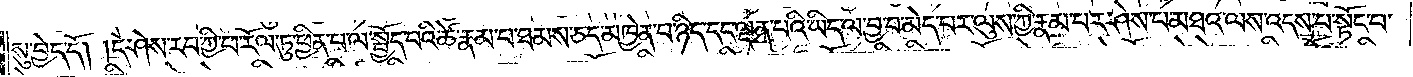སུ་བྱེད་དོ། །དེ་ཤེས་རབ་ཀྱི་ཕ་རོལ་ཏུ་ཕྱིན་པ་ལ་སྤྱོད་པའི་ཚེ་རྣམ་པ་ཐམས་ཅད་མཁྱེན་པ་ཉིད་དང་ལྡན་པའི་ཡིད་ལ་བྱ་བ་མེད་པར་ལུས་ཀྱི་རྣམ་པར་ཤེས་པ་མཐའ་ལས་འདས་པ་སྟོང་པ་
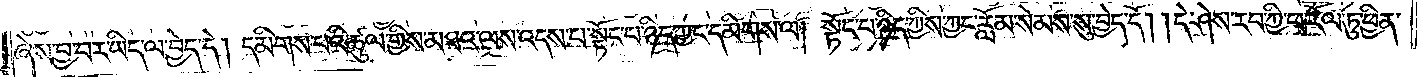ཞེས་བྱ་བར་ཡིད་ལ་བྱེད་དེ། དམིགས་པའི་ཚུལ་གྱིས་མཐའ་ལས་འདས་པ་སྟོང་པ་ཉིད་ཀྱང་དམིགས་ལ། སྟོང་པ་ཉིད་ཀྱིས་ཀྱང་རློམ་སེམས་སུ་བྱེད་དོ། །དེ་ཤེས་རབ་ཀྱི་ཕ་རོལ་ཏུ་ཕྱིན་
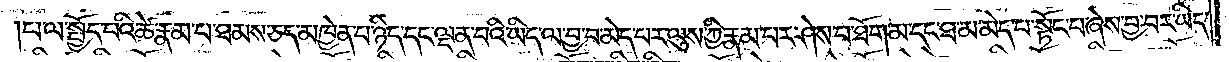པ་ལ་སྤྱོད་པའི་ཚེ་རྣམ་པ་ཐམས་ཅད་མཁྱེན་པ་ཉིད་དང་ལྡན་པའི་ཡིད་ལ་བྱ་བ་མེད་པར་ལུས་ཀྱི་རྣམ་པར་ཤེས་པ་ཐོག་མ་དང་ཐ་མ་མེད་པ་སྟོང་པ་ཞེས་བྱ་བར་ཡིད་
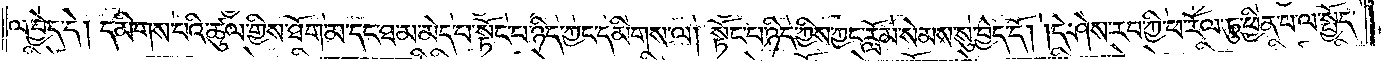ལ་བྱེད་དེ། དམིགས་པའི་ཚུལ་གྱིས་ཐོག་མ་དང་ཐ་མ་མེད་པ་སྟོང་པ་ཉིད་ཀྱང་དམིགས་ལ། སྟོང་པ་ཉིད་ཀྱིས་ཀྱང་རློམ་སེམས་སུ་བྱེད་དོ། །དེ་ཤེས་རབ་ཀྱི་ཕ་རོལ་ཏུ་ཕྱིན་པ་ལ་སྤྱོད་
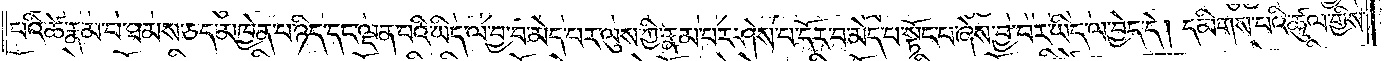པའི་ཚེ་རྣམ་པ་ཐམས་ཅད་མཁྱེན་པ་ཉིད་དང་ལྡན་པའི་ཡིད་ལ་བྱ་བ་མེད་པར་ལུས་ཀྱི་རྣམ་པར་ཤེས་པ་དོར་བ་མེད་པ་སྟོང་པ་ཞེས་བྱ་བར་ཡིད་ལ་བྱེད་དེ། དམིགས་པའི་ཚུལ་གྱིས་
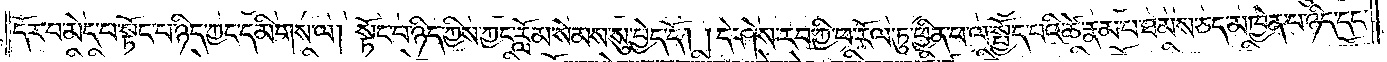དོར་བ་མེད་པ་སྟོང་པ་ཉིད་ཀྱང་དམིགས་ལ། སྟོང་པ་ཉིད་ཀྱིས་ཀྱང་རློམ་སེམས་སུ་བྱེད་དོ། །དེ་ཤེས་རབ་ཀྱི་ཕ་རོལ་ཏུ་ཕྱིན་པ་ལ་སྤྱོད་པའི་ཚེ་རྣམ་པ་ཐམས་ཅད་མཁྱེན་པ་ཉིད་དང་
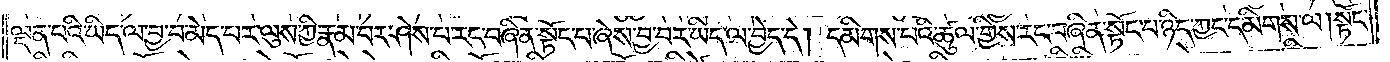ལྡན་པའི་ཡིད་ལ་བྱ་བ་མེད་པར་ལུས་ཀྱི་རྣམ་པར་ཤེས་པ་རང་བཞིན་སྟོང་པ་ཞེས་བྱ་བར་ཡིད་ལ་བྱེད་དེ། དམིགས་པའི་ཚུལ་གྱིས་རང་བཞིན་སྟོང་པ་ཉིད་ཀྱང་དམིགས་ལ། སྟོང་
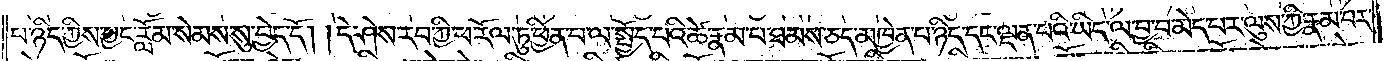པ་ཉིད་ཀྱིས་ཀྱང་རློམ་སེམས་སུ་བྱེད་དོ། །དེ་ཤེས་རབ་ཀྱི་ཕ་རོལ་ཏུ་ཕྱིན་པ་ལ་སྤྱོད་པའི་ཚེ་རྣམ་པ་ཐམས་ཅད་མཁྱེན་པ་ཉིད་དང་ལྡན་པའི་ཡིད་ལ་བྱ་བ་མེད་པར་ལུས་ཀྱི་རྣམ་པར་
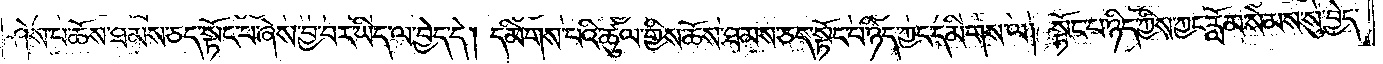ཤེས་པ་ཆོས་ཐམས་ཅད་སྟོང་པ་ཞེས་བྱ་བར་ཡིད་ལ་བྱེད་དོ། དམིགས་པའི་ཚུལ་གྱིས་ཆོས་ཐམས་ཅད་སྟོང་པ་ཉིད་ཀྱང་དམིགས་ལ། སྟོང་པ་ཉིད་ཀྱིས་ཀྱང་རློམ་སེམས་སུ་བྱེད་
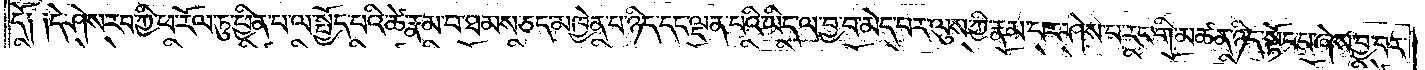དོ༑ ༑དེ་ཤེས་རབ་ཀྱི་ཕ་རོལ་ཏུ་ཕྱིན་པ་ལ་སྤྱོད་པའི་ཚེ་རྣམ་པ་ཐམས་ཅད་མཁྱེན་པ་ཉིད་དང་ལྡན་པའི་ཡིད་ལ་བྱ་བ་མེད་པར་ལུས་ཀྱི་རྣམ་པར་ཤེས་པ་རང་གི་མཚན་ཉིད་སྟོང་པ་ཞེས་བྱ་བར་
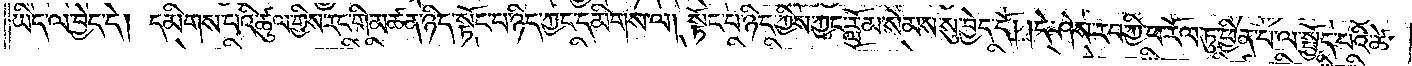ཡིད་ལ་བྱེད་དེ། དམིགས་པའི་ཚུལ་གྱིས་རང་གི་མཚན་ཉིད་སྟོང་པ་ཉིད་ཀྱང་དམིགས་ལ། སྟོང་པ་ཉིད་ཀྱིས་ཀྱང་རློམ་སེམས་སུ་བྱེད་དོ། །དེ་ཤེས་རབ་ཀྱི་ཕ་རོལ་ཏུ་ཕྱིན་པ་ལ་སྤྱོད་པའི་ཚེ་
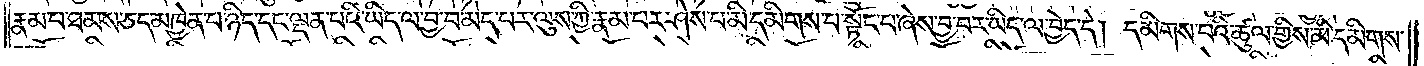རྣམ་པ་ཐམས་ཅད་མཁྱེན་པ་ཉིད་དང་ལྡན་པའི་ཡིད་ལ་བྱ་བ་མེད་པར་ལུས་ཀྱི་རྣམ་པར་ཤེས་པ་མི་དམིགས་པ་སྟོང་པ་ཞེས་བྱ་བར་ཡིད་ལ་བྱེད་དེ། དམིགས་པའི་ཚུལ་གྱིས་མི་དམིགས་
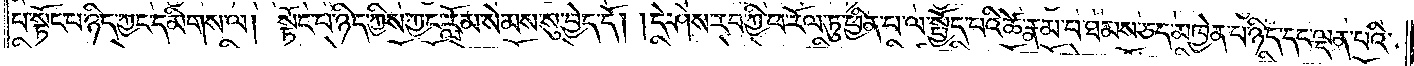པ་སྟོང་པ་ཉིད་ཀྱང་དམིགས་ལ། སྟོང་པ་ཉིད་ཀྱིས་ཀྱང་རློམ་སེམས་སུ་བྱེད་དོ། །དེ་ཤེས་རབ་ཀྱི་ཕ་རོལ་ཏུ་ཕྱིན་པ་ལ་སྤྱོད་པའི་ཚེ་རྣམ་པ་ཐམས་ཅད་མཁྱེན་པ་ཉིད་དང་ལྡན་པའི་
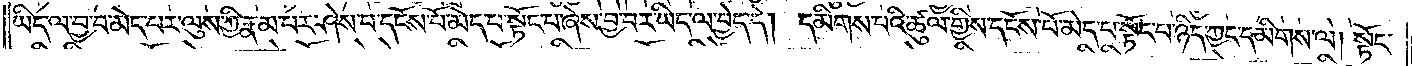ཡིད་ལ་བྱ་བ་མེད་པར་ལུས་ཀྱི་རྣམ་པར་ཤེས་པ་དངོས་པོ་མེད་པ་སྟོང་པ་ཞེས་བྱ་བར་ཡིད་ལ་བྱེད་དེ། དམིགས་པའི་ཚུལ་གྱིས་དངོས་པོ་མེད་པ་སྟོང་པ་ཉིད་ཀྱང་དམིགས་ལ། སྟོང་
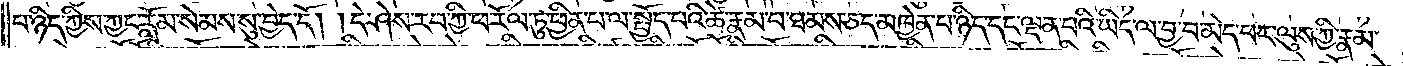པ་ཉིད་ཀྱིས་ཀྱང་རློམ་སེམས་སུ་བྱེད་དོ། །དེ་ཤེས་རབ་ཀྱི་ཕ་རོལ་ཏུ་ཕྱིན་པ་ལ་སྤྱོད་པའི་ཚེ་རྣམ་པ་ཐམས་ཅད་མཁྱེན་པ་ཉིད་དང་ལྡན་པའི་ཡིད་ལ་བྱ་བ་མེད་པར་ལུས་ཀྱི་རྣམ་
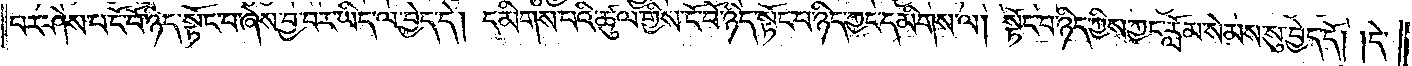པར་ཤེས་པ་ངོ་བོ་ཉིད་སྟོང་པ་ཞེས་བྱ་བར་ཡིད་ལ་བྱེད་དེ། དམིགས་པའི་ཚུལ་གྱིས་ངོ་བོ་ཉིད་སྟོང་པ་ཉིད་ཀྱང་དམིགས་ལ། སྟོང་པ་ཉིད་ཀྱིས་ཀྱང་རློམ་སེམས་སུ་བྱེད་དོ། །དེ་
